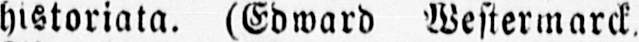historiata. (Edward Westermarck.
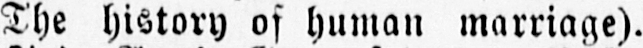The history of human marriage).
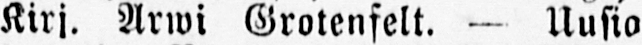Kirj. Arwi Grotenfelt. — Uusio
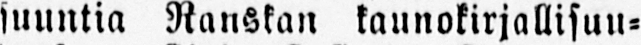suuntia Ranskan kaunokirjallisuu-
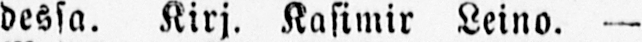dessa. Kirj. Kasimir Leino. —
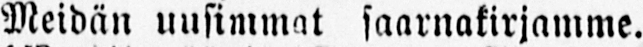Meidän uusimmat saarnakirjamme.
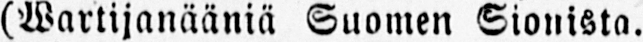(Wartijanääniä Suomen Sionista.
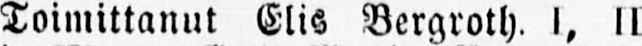Toimittanut Elis Bergroth. I, II
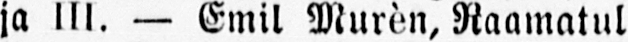ja III. — Emil Murén, Raamatul-
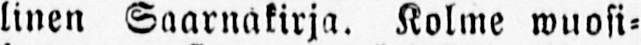linen Saarnakirja. Kolme wuosi-
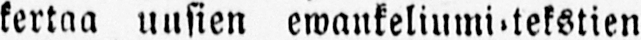kertaa uusien ewankeliumi-tekstien
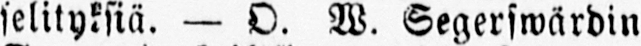selityksiä. — O. W. Segerswärdin
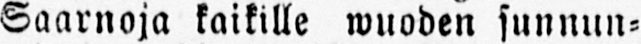Saarnoja kaikille wuoden sunnun-
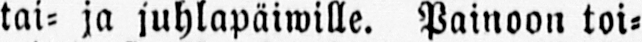tai- ja juhlapäiwille. Painoon toi-
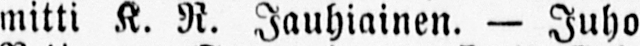mitti K. R. Jauhiainen. — Juho
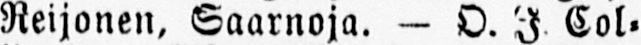Reijonen, Saarnoja. — O. J Col-
